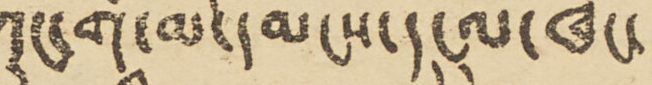ཀྲུང་གོ་མི་དམངས་དངུལ་ཁང་
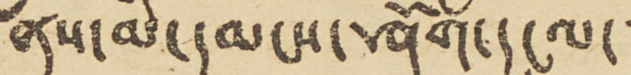ནས་མི་དམངས་ཤོག་དངུལ་་་
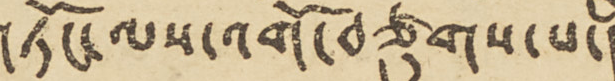གསར་པ་འགྲེམས་གཏོང་ལས་འགོ་བཙུགས་པ་།
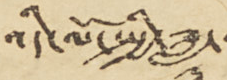འདི་ལོ་སྤྱི་ཟླ་
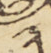༣
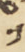༡
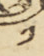༡
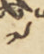༧
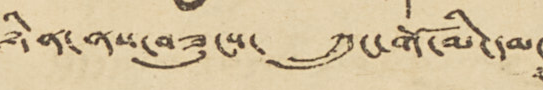ཉིན་ནས་བཟུངས་ ཀྲུང་གོ་མི་དམང་
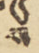ས
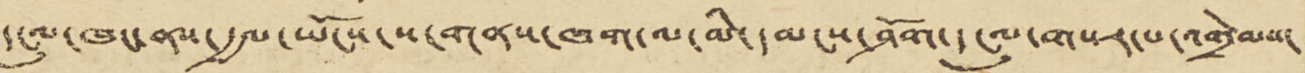དངུལ་ཁང་ནས་རྒྱལ་ཡོངས་ས་གནས་ཁག་ལ་མི་དམངས་ཤོག་དངུལ་གསར་པ་འགྲེམས་
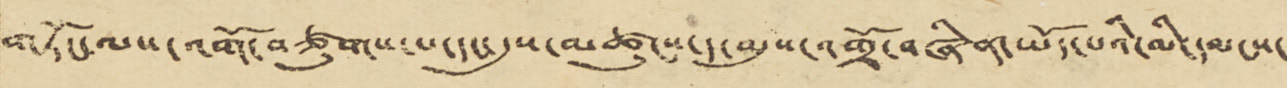གཏོང་ལས་འགོ་བཙུགས་པ་དང་དུས་མཚུངས་ད་མུས་འགྲོ་བཞིན་ཡོད་པའི་མི་དམངས་་
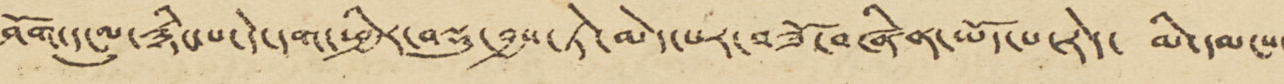ཤོག་དངུལ་རྙིང་པ་དེ་དག་ཕྱིར་བསྡུ་བྱས་ཏེ་མེད་པར་བཟོ་བཞིན་ཡོད་པ་རེད་ མི་དམངས་
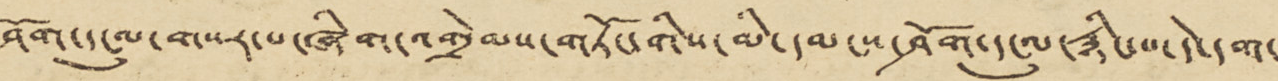ཤོག་དངུལ་གསར་པ་ཞིག་འགྲེམས་གཏོང་གིས་མི་དམངས་ཤོག་དངུལ་རྙིང་པ་དེ་དག་་
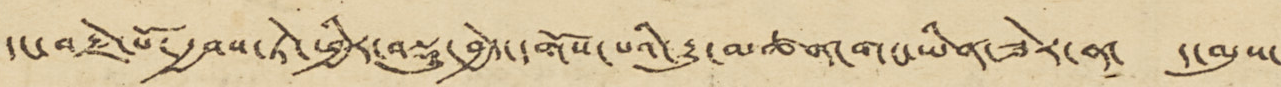དང་བརྗེ་པོ་རྒྱབས་ཏེ་ཕྱིར་བསྡུ་བྱེད་དགོས་པའི་རྒྱུ་མཚན་གང་ཡིན་ཟེར་ན་ ད་མུས་་
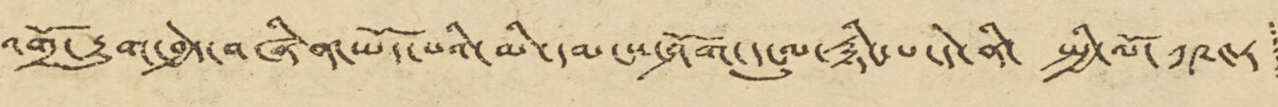འགྲོ་རྒྱུག་བྱེད་བཞིན་ཡོད་པའི་མི་དམངས་ཤོག་དངུལ་རྙིང་པ་དེ་ནི་ སྤྱི་ལོ་ ༡༩༥༨
